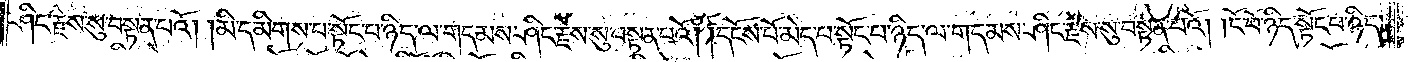ཤིང་རྗེས་སུ་བསྟན་པའོ། །མི་དམིགས་བ་སྟོང་པ་ཉིད་ལ་གདམས་ཤིང་རྗེས་སུ་བསྟན་པའོ། །དངོས་པོ་མེད་པ་སྟོང་བ་ཉིད་ལ་གདམས་ཤིང་རྗེས་སུ་བསྟན་པའོ། །ངོ་བོ་ཉིད་སྟོང་པ་ཉིད་
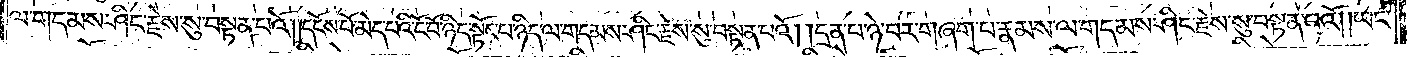ལ་གདམས་ཤིང་རྗེས་སུ་བསྟན་པའོ། །དངོས་པོ་མེད་པའི་ངོ་བོ་ཉིད་སྟོང་པ་ཉིད་ལ་གདམས་ཤིང་རྗེས་སུ་བསྟན་པའོ། །དྲན་པ་ཉེ་བར་གཞག་པ་རྣམས་ལ་གདམས་ཤིང་རྗེས་སུ་བསྟན་པའོ། །ཡང་
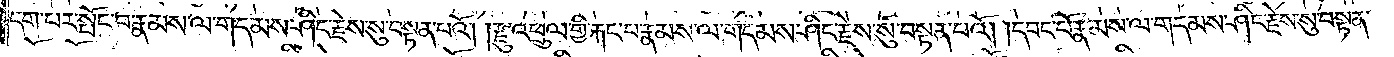དག་པར་སྤོང་བ་རྣམས་ལ་གདམས་ཤིང་རྗེས་སུ་བསྟན་པའོ། །རྫུ་འཕྲུལ་གྱི་རྐང་པ་རྣམས་ལ་གདམས་ཤིང་རྗེས་སུ་བསྟན་པའོ། །དབང་པོ་རྣམས་ལ་གདམས་ཤིང་རྗེས་སུ་བསྟན་
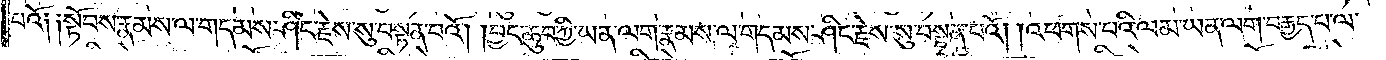པའོ༑ ༑སྟོབས་རྣམས་ལ་གདམས་ཤིང་རྗེས་སུ་བསྟན་པའོ། །བྱང་ཆུབ་ཀྱི་ཡན་ལག་རྣམས་ལ་གདམས་ཤིང་རྗེས་སུ་བསྟན་པའོ། །འཕགས་པའི་ལམ་ཡན་ལག་བརྒྱད་པ་ལ་
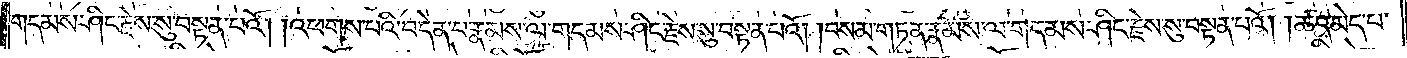གདམས་ཤིང་རྗེས་སུ་བསྟན་པའོ། །འཕགས་པའི་བ་དན་པ་རྣམས་ལ་གདམས་ཤིང་རྗེས་སུ་བསྟན་པའོ། །བསམ་གཏན་རྣམས་ལ་གདམས་ཤིང་རྗེས་སུ་བསྟན་པའོ། །ཚད་མེད་པ་
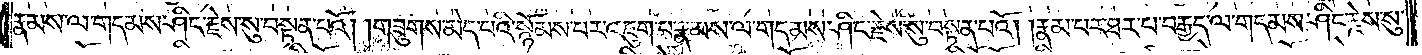རྣམས་ལ་གདམས་ཤིང་རྗེས་སུ་བསྟན་པའོ། །གཟུགས་མེད་པའི་སྙོམས་པར་འཇུག་པ་རྣམས་ལ་གདམས་ཤིང་རྗེས་སུ་བསྟན་པའོ། །རྣམ་པར་ཐར་པ་བརྒྱད་ལ་གདམས་ཤིང་རྗེས་སུ་
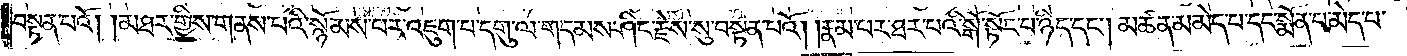བསྟན་པའོ། །མཐར་གྱིས་གནས་བའི་སྙོམས་པར་འཇུག་པ་དགུ་ལ་གདམས་ཤིང་རྗེས་སུ་བསྟན་པའོ། །རྣམ་པར་ཐར་པའི་སྒོ་སྟོང་པ་ཉིད་དང༌། མཚན་མ་མེད་པ་དང་སྨོན་པ་མེད་པ་
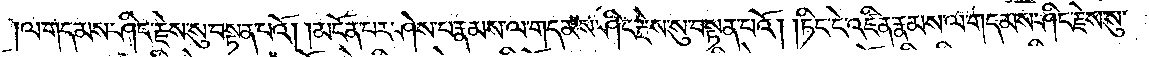ལ་གདམས་ཤིང་རྗེས་སུ་བསྟན་པའོ། །མངོན་པར་ཤེས་པ་རྣམས་ལ་གདམས་ཤིང་རྗེས་སུ་བསྟན་པའོ། །ཏིང་ངེ་འཛིན་རྣམས་ལ་གདམས་ཤིང་རྗེས་སུ་
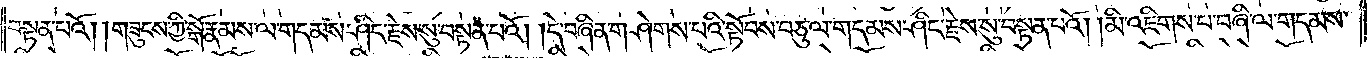བསྟན་པའོ། །གཟུངས་ཀྱི་སྒོ་རྣམས་ལ་གདམས་ཤིང་རྗེས་སུ་བསྟན་པའོ། །དེ་བཞིན་གཤེགས་པའི་སྟོབས་བཅུ་ལ་གདམས་ཤིང་རྗེས་སུ་བསྟན་པའོ། །མི་འཇིགས་པ་བཞི་ལ་གདམས་
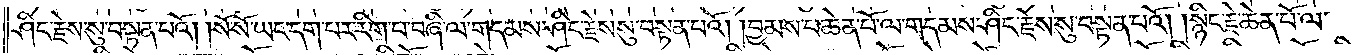ཤིང་རྗེས་སུ་བསྟན་པའོ། །སོ་སོ་ཡང་དག་པར་རིག་པ་བཞི་ལ་གདམས་ཤིང་རྗེས་སུ་བསྟན་པའོ། །བྱམས་པ་ཆེན་པོ་ལ་གདམས་ཤིང་རྗེས་སུ་བསྟན་པའོ། །སྙིང་རྗེ་ཆེན་པོ་ལ་
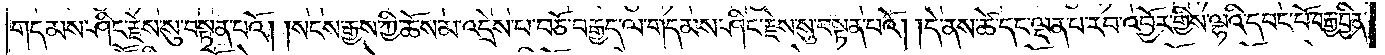གདམས་ཤིང་རྗེས་སུ་བསྟན་པའོ། །སངས་རྒྱས་ཀྱི་ཆོས་མ་འདྲེས་བ་བཅོ་བརྒྱད་ལ་གདམས་ཤིང་རྗེས་སུ་བསྟན་པའོ། །དེ་ནས་ཚེ་དང་ལྡན་པ་རབ་འབྱོར་གྱིས་ལྷའི་དབང་པོ་བརྒྱ་བྱིན་
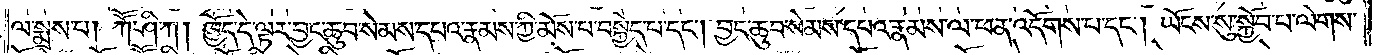ལ་སྨྲས་པ། ཀཽ་ཤི་ཀ། ཁྱོད་དེ་ལྟར་བྱང་ཆུབ་སེམས་དཔའ་རྣམས་ཀྱི་མོས་པ་བསྐྱེད་པ་དང༌། བྱང་ཆུབ་སེམས་དཔའ་རྣམས་ལ་ཕན་འདོགས་པ་དང༌། ཡོངས་སུ་སྐྱོབ་པ་ལེགས་
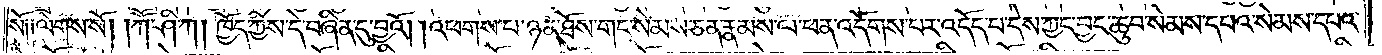སོ༑ ༑ལེགས་སོ། །ཀཽ་ཤི་ཀ། ཁྱོད་ཀྱིས་དེ་བཞིན་དུ་བྱའོ། །འཕགས་པ་ཉན་ཐོས་གང་སེམས་ཅན་རྣམས་ལ་ཕན་འདོགས་པར་འདོད་བ་དེས་ཀྱང་བྱང་ཆུབ་སེམས་དཔའ་སེམས་དཔའ་
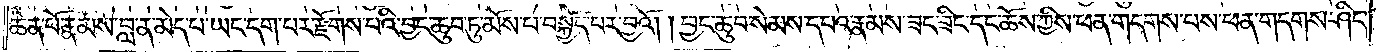ཆེན་པོ་རྣམས་བླ་ན་མེད་པ་ཡང་དག་པར་རྫོགས་པའི་བྱང་ཆུབ་ཏུ་མོས་པ་བསྐྱེད་པར་བྱའོ། །བྱང་ཆུབ་སེམས་དཔའ་རྣམས་ཟང་ཟིང་དང་ཆོས་ཀྱིས་ཕན་གདགས་པས་ཕན་གདགས་ཤིང་
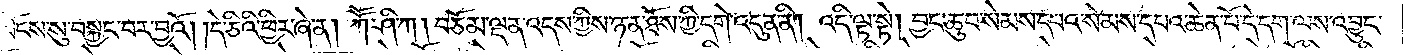ཡོངས་སུ་བསྐྱང་བར་བྱའོ། །དེ་ཅིའི་ཕྱིར་ཞེ་ན། ཀཽ་ཤི་ཀ། བཅོམ་ལྡན་འདས་ཀྱིས་ཉན་ཐོས་ཀྱི་དགེ་འདུན་ནི། འདི་ལྟ་སྟེ། བྱང་ཆུབ་སེམས་དཔའ་སེམས་དཔའ་ཆེན་པོ་དེ་དག་ལས་འབྱུང་
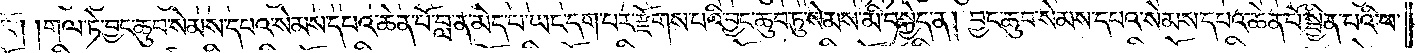ངོ༌། །གལ་ཏེ་བྱང་ཆུབ་སེམས་དཔའ་སེམས་དཔའ་ཆེན་པོ་བླ་ན་མེད་པ་ཡང་དག་པར་རྫོགས་པའི་བྱང་ཆུབ་ཏུ་སེམས་མི་བསྐྱེད་ན། བྱང་ཆུབ་སེམས་དཔའ་སེམས་དཔའ་ཆེན་པོ་སྦྱིན་པའི་ཕ་
